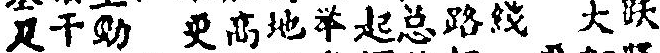足干勁 更高地举起总路綫 大跃
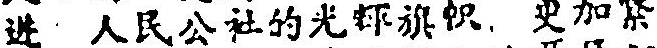进 人民公社的光輝旗帜，又加紧
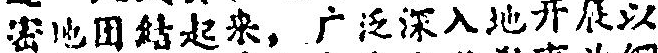密地团結起来，广泛深入地开展以
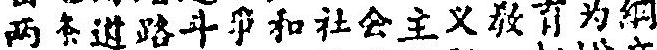两条道路斗爭和社会主义敎育为綱
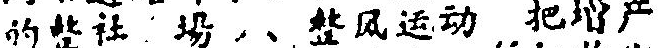的整社 場 、整风运动，把增产
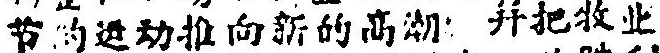节约运动推向新的高潮，并把牧业
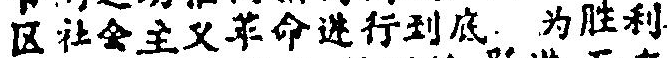区社全主义革命进行到底，为胜利
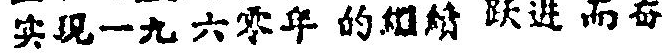实現一九六零年的継續 跃进而奋
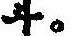斗。
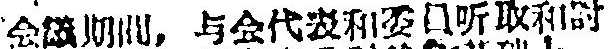会議期間，与会代表和委員听取和討
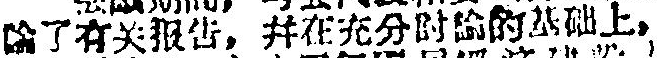論了有关报告，并在充分討論的基础上，
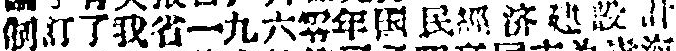制訂了我省一九六零年国民經济建設計
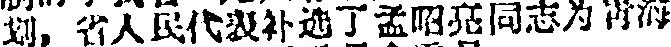划，省人民代表补选了孟昭亮同志为靑海
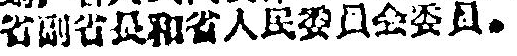省副省長和省人民委員会委員。
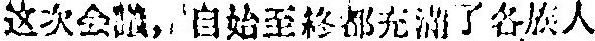这次会議，自始至終都充滿了各族人
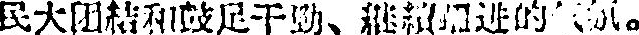民大团結和鼓足干勁、継續躍进的气氛。
